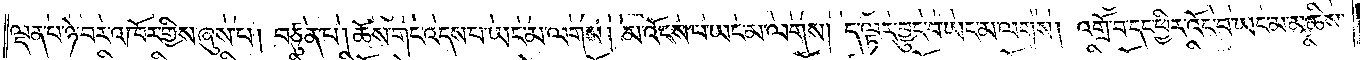ལྡན་པ་ཉེ་བར་འཁོར་གྱིས་ཞུས་པ། བཙུན་པ། ཆོས་གང་འདས་པ་ཡང་མ་ལགས། མ་འོངས་པ་ཡང་མ་ལགས། ད་ལྟར་བྱུང་བ་ཡང་མ་ལགས། འགྲོ་བ་དང་ཕྱིར་འོང་བ་ཡང་མ་མཆིས་
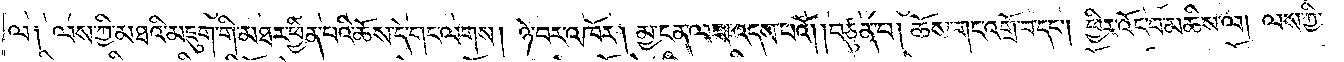ལ༑ ལས་ཀྱི་མཐའི་མཇུག་གི་མཐར་ཕྱིན་པའི་ཆོས་དེ་གང་ལགས། ཉེ་བར་འཁོར། མྱ་ངན་ལས་འདས་པའོ། །བཙུན་པ། ཆོས་གང་འགྲོ་བ་དང༌། ཕྱིར་འོང་བ་མཆིས་ལ། ལས་ཀྱི་
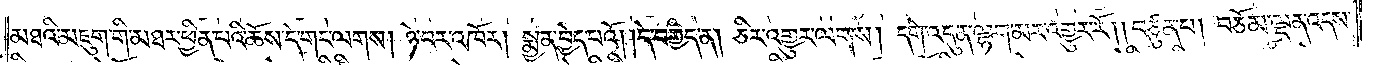མཐའི་མཇུག་གི་མཐར་ཕྱིན་པའི་ཆོས་དེ་གང་ལགས། ཉེ་བར་འཁོར། སྨྱན་བྱེད་པའོ། །དེ་བགྱིད་ན། ཅིར་འགྱུར་ལགས། དགེ་འདུན་ལྷག་མར་འགྱུར་རོ། །བཙུན་པ། བཅོམ་ལྡན་འདས་
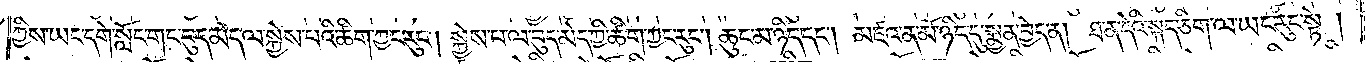ཀྱིས་ཡང་དགེ་སློང་གང་བུད་མེད་ལ་སྐྱེས་པའི་ཚིག་ཀྱང་རུང༌། །སྐྱེས་པ་ལ་བུད་མེད་ཀྱི་ཚིག་ཀྱང་རུང༌། ཆུང་མ་ཉིད་དང༌། མཛའ་ན་མོ་ཉིང་དུ་སྨྱན་བྱེད་ན། ཐ་ན་དེའི་སྐད་ཅིག་ལ་ཡང་རུང་སྟེ།
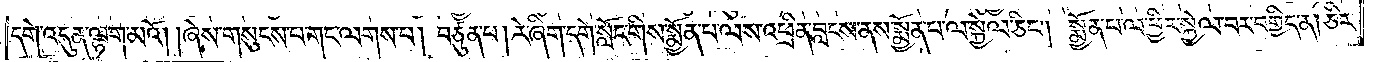དགེ་འདུན་ལྷག་མའོ། །ཞེས་གསུངས་པ་གང་ལགས་པ། བཙུན་པ། རེ་ཞིག་དགེ་སློང་གིས་སྨྱོན་པ་ལས་འཕྲིན་བླངས་ནས་སྨྱོན་བ་ལ་སྐྱེལ་ཅིང༌། སྨྱོན་པ་ལ་ཕྱིར་སྐྱེལ་བར་བགྱིད་ན། ཅིར་
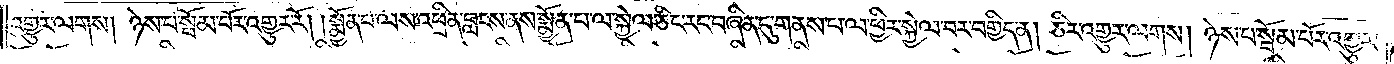འགྱུར་ལགས། ཉེས་པ་སྦོམ་པོར་འགྱུར་རོ། །སྨྱོན་པ་ལས་འཕྲིན་བླངས་ནས་སྨྱོན་པ་ལ་སྐྱེལ་ཅིང་རང་བཞིན་དུ་གནས་པ་ལ་ཕྱིར་སྐྱེལ་བར་བགྱིད་ན། ཅིར་འགྱུར་ལགས། ཉེས་པ་སྦོམ་པོར་འགྱུར་
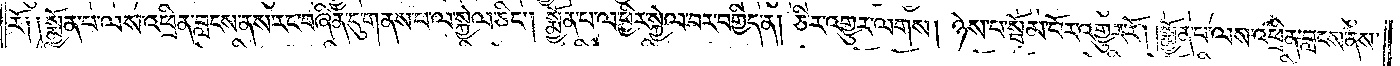རོ། །སྨྱོན་པ་ལས་འཕྲིན་བླངས་ནས་རང་བཞིན་དུ་གནས་པ་ལ་སྐྱེལ་ཅིང༌། སྨྱོན་པ་ལ་ཕྱིར་སྐྱེལ་བར་བགྱིད་ན། ཅིར་འགྱུར་ལགས། ཉེས་པ་སྦོམ་པོར་འགྱུར་རོ། །སྨྱོན་པ་ལས་འཕྲིན་བླངས་ནས་
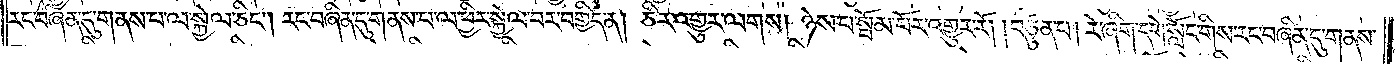རང་བཞིན་དུ་གནས་པ་ལ་སྐྱེལ་ཅིང༌། རང་བཞིན་དུ་གནས་པ་ལ་ཕྱིར་སྐྱེལ་བར་བགྱིད་ན། ཅིར་འགྱུར་ལགས། ཉེས་པ་སྦོམ་པོར་འགྱུར་རོ། །བཙུན་པ། རེ་ཞིག་དགེ་སློང་གིས་རང་བཞིན་དུ་གནས་
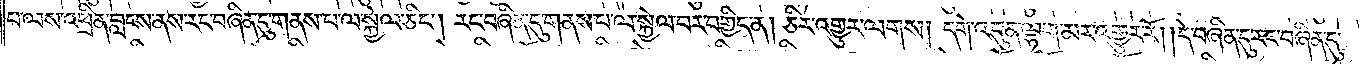པ་ལས་འཕྲིན་བླངས་ནས་རང་བཞིན་དུ་གནས་པ་ལ་སྐྱེལ་ཅིང༌། རང་བཞིན་དུ་གནས་པ་ལ་སྐྱེལ་བར་བགྱིད་ན། ཅིར་འགྱུར་ལགས། དགེ་འདུན་ལྷག་མར་འགྱུར་རོ། །དེ་བཞིན་དུ་རང་བཞིན་དུ་
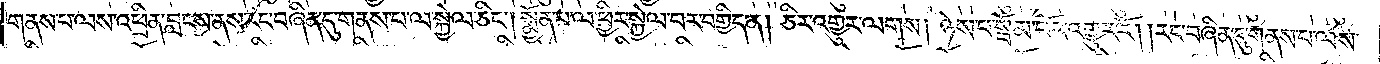གནས་པ་ལས་འཕྲིན་བླངས་ནས་རང་བཞིན་དུ་གནས་པ་ལ་སྐྱེལ་ཅིང༌། སྨྱོན་པ་ལ་ཕྱིར་སྐྱེལ་བར་བགྱིད་ན། ཅིར་འགྱུར་ལགས། ཉེས་པ་སྦོམ་པོར་འགྱུར་རོ། །རང་བཞིན་དུ་གནས་པ་ལས་
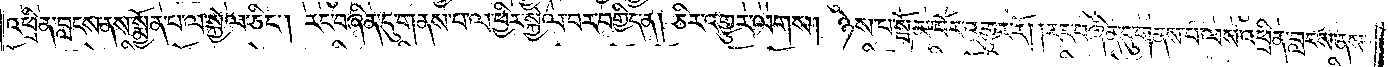འཕྲིན་བླངས་ནས་སྨྱོན་པ་ལ་སྐྱེལ་ཅིང༌། རང་བཞིན་དུ་གནས་པ་ལ་ཕྱིར་སྐྱེལ་བར་བགྱིད་ན། ཅིར་འགྱུར་ལགས། ཉེས་པ་སྦོམ་པོར་འགྱུར་རོ། །རང་བཞིན་དུ་གནས་པ་ལས་འཕྲིན་བླངས་ནས་
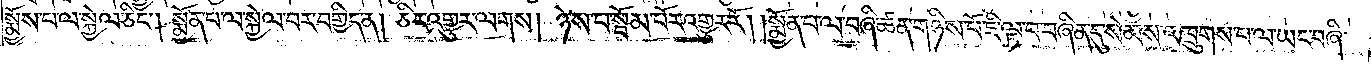སྨྱོས་པ་ལ་སྐྱེལ་ཅིང༌། སྨྱོན་པ་ལ་སྐྱེལ་བར་བགྱིད་ན། ཅིར་འགྱུར་ལགས། ཉེས་པ་སྦོམ་པོར་འགྱུར་རོ། །སྨྱོན་པ་ལ་བཞི་ཚན་གཉིས་པོ་ཇི་ལྟ་བ་བཞིན་དུ་སེམས་འཁྲུགས་པ་ལ་ཡང་བཞི་
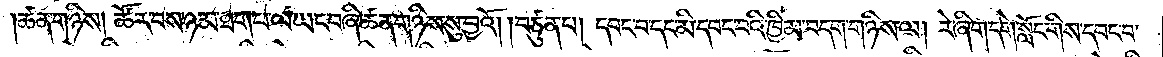།ཚན་གཉིས། ཚོར་བས་ཉམ་ཐག་པ་ལ་ཡང་བཞི་ཚན་གཉིས་སུ་བྱའོ། །བཙུན་པ། དབང་བ་དང་མི་དབང་བའི་ཁྱིམ་བདག་གཉིས་ལ། རེ་ཞིག་དགེ་སློང་གིས་དབང་བ་
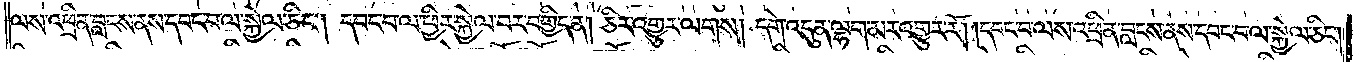ལས་འཕྲིན་བླངས་ནས་དབང་བ་ལ་སྐྱེལ་ཅིང༌། དབང་བ་ལ་ཕྱིར་སྐྱེལ་བར་བགྱིད་ན། ཅིར་འགྱུར་ལགས། དགེ་འདུན་ལྷག་མར་འགྱུར་རོ། །དབང་བ་ལས་འཕྲིན་བླངས་ནས་དབང་བ་ལ་སྐྱེལ་ཅིང༌།
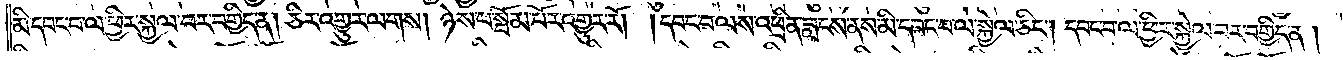མི་དབང་བ་ལ་ཕྱིར་སྐྱལ་བར་བགྱིད་ན། ཅིར་འགྱུར་ལགས། ཉེས་པ་སྦོམ་པོར་འགྱུར་རོ། །དབང་བ་ལས་འཕྲིན་བླངས་ནས་མི་དབང་བ་ལ་སྐྱེལ་ཅིང༌། དབང་བ་ལ་ཕྱིར་སྐྱེལ་བར་བགྱིད་ན།
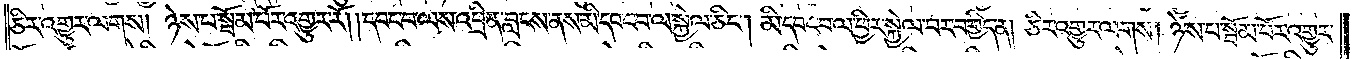ཅིར་འགྱུར་ལགས། ཉེས་པ་སྦོམ་པོར་འགྱུར་རོ། །དབང་བ་ལས་འཕྲིན་བླངས་ནས་མི་དབང་བ་ལ་སྐྱེལ་ཅིང༌། མི་དབང་བ་ལ་ཕྱིར་སྐྱེལ་བར་བགྱིད་ན། ཅིར་འགྱུར་ལགས། ཉེས་པ་སྦོམ་པོར་འགྱུར་
